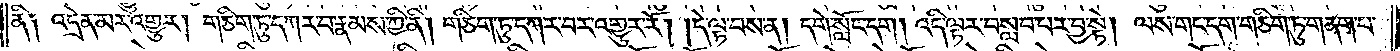ནི༑ འདྲེན་མར་འགྱུར། གཅིག་ཏུ་དཀར་བ་རྣམས་ཀྱི་ནི། གཅིག་ཏུ་དཀར་བར་འགྱུར་རོ། །དེ་ལྟ་བས་ན། དགེ་སློང་དག །འདི་ལྟར་བསླབ་པར་བྱ་སྟེ། ལས་གང་དག་གཅིག་ཏུ་གནག་པ་
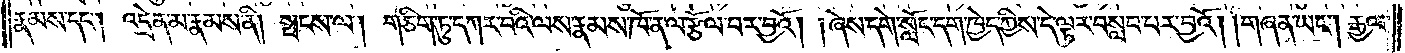རྣམས་དང་འདྲེན་མ་རྣམས་ནི། སྤངས་ལ། གཅིག་ཏུ་དཀར་བའི་ལས་རྣམས་ཁོ་ན་ལ་རྩོལ་བར་བྱའོ། །ཞེས་དགེ་སློང་དག་ཁྱེད་ཀྱིས་དེ་ལྟར་བསླབ་པར་བྱའོ།    །གཞན་ཡང༌། རྒྱལ་
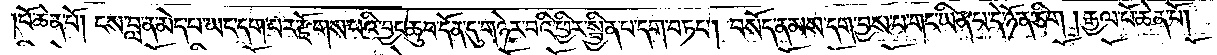པོ་ཆེན་པོ། ངས་བླ་ན་མེད་པ་ཡང་དག་པར་རྫོགས་པའི་བྱང་ཆུབ་དོན་དུ་གཉེར་བའི་ཕྱིར་སྦྱིན་པ་དག་བཏང༌། བསོད་ནམས་དག་བྱས་པ་གང་ཡིན་པ་དེ་ཉོན་ཅིག །རྒྱལ་པོ་ཆེན་པོ།
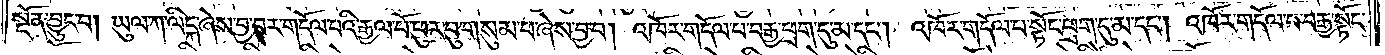སྔོན་བྱུང་བ། ཡུལ་ཀ་ལིངྐ་ཞེས་བྱ་བར་གདོལ་བའི་རྒྱལ་པོ་ཕུར་བུ་གསུམ་པ་ཞེས་བྱ་བ། འཁོར་གདོལ་པ་བརྒྱ་ཕྲག་དུ་མ་དང༌། འཁོར་གདོལ་པ་སྟོང་ཕྲག་དུ་མ་དང༌། འཁོར་གདོལ་པ་བརྒྱ་སྟོང་
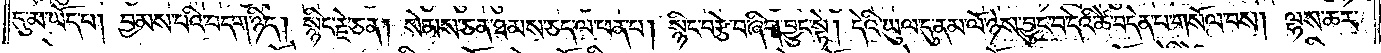དུ་མ་ཡོད་པ། བྱམས་པའི་བདག་ཉིད། སྙིང་རྗེ་ཅན། སེམས་ཅན་ཐམས་ཅད་ལ་ཕན་པ། སྙིང་བརྩེ་བ་ཞིག་བྱུང་སྟེ། དེའི་ཡུལ་དུ་ནམ་ལོ་ཉེས་བྱུང་བ་དེའི་ཚེ་བདེན་པ་གསོལ་བས། ལྷས་ཆར་
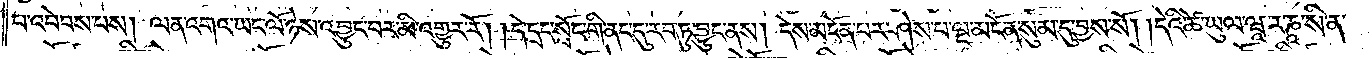པ་འབེབས་པས། ལན་འགའ་ཡང་ལོ་ཉེས་འབྱུང་བར་མི་འགྱུར་རོ། །དེ་དྲང་སྲོང་གི་ནང་དུ་རབ་ཏུ་བྱུང་ནས། དེས་མངོན་པར་ཤེས་པ་ལྔ་མངོན་སུམ་དུ་བྱས་སོ། །དེའི་ཚེ་ཡུལ་ཝཱ་ར་ཎཱ་སི་ན་
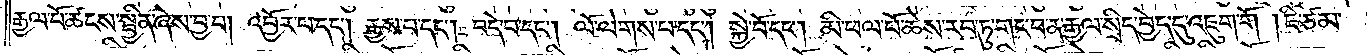རྒྱལ་པོ་ཚངས་སྦྱིན་ཞེས་བྱ་བ། འབྱོར་པ་དང༌། རྒྱས་པ་དང༌། བདེ་བ་དང༌། ལོ་ལེགས་པ་དང༌། སྐྱེ་བོ་དང༌། མི་ཕལ་པོ་ཆེས་རབ་ཏུ་གང་བ་ན་རྒྱལ་སྲིད་བྱེད་དུ་འཇུག་གོ །ཇི་ཙམ་
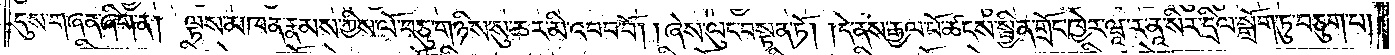དུས་གཞན་ཞིག་ན། ལྟས་མཁན་རྣམས་ཀྱིས་ལོ་བཅུ་གཉིས་སུ་ཆར་མི་འབབ་བོ། །ཞེས་ལུང་བསྟན་ཏོ། །དེ་ནས་རྒྱལ་པོ་ཚངས་སྦྱིན་གྲོང་ཁྱེར་ཝཱ་ར་ནཱ་སིར་དྲིལ་སྒྲོག་ཏུ་བཅུག་པ།
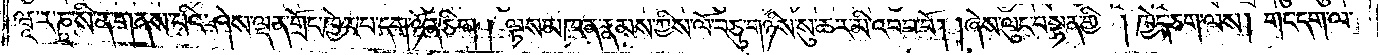ཝཱ་ར་ཎཱ་སི་ན་གནས་པའི་ཤེས་ལྡན་གྲོང་ཁྱེར་པ་དག་ཉོན་ཅིག །ལྟས་མཁན་རྣམས་ཀྱིས་ལོ་བཅུ་གཉིས་སུ་ཆར་མི་འབབ་བོ། །ཞེས་ལུང་བསྟན་གྱི། ཁྱེད་ཅག་ལས། གང་དག་ལ་
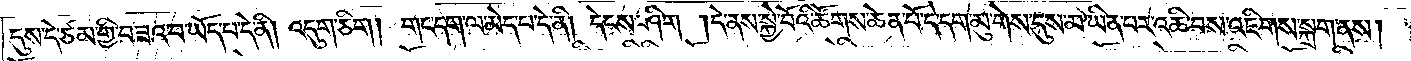དུས་དེ་ཙམ་གྱི་བཟའ་བ་ཡོད་པ་དེ་ནི། འདུག་ཅིག །གང་དག་ལ་མེད་པ་དེ་ནི། དེངས་ཤིག །དེ་ནས་སྐྱེ་བོའི་ཚོགས་ཆེན་པོ་དེ་དག་མུ་གེས་དུས་མ་ཡིན་པར་འཆི་བས་འཇིགས་སྐྲག་ནས།
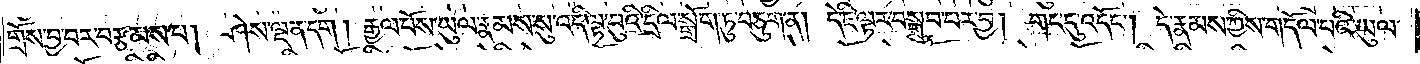གྲོས་བྱ་བར་བརྩམས་པ། ཤེས་ལྡན་དག །རྒྱལ་པོས་ཡུལ་རྣམས་སུ་འདི་ལྟ་བུའི་དྲིལ་སྒྲོག་ཏུ་བཅུག་ན། དེ་ཇི་ལྟར་བསྒྲུབ་པར་བྱ། གང་དུ་འདོང༌། དེ་རྣམས་ཀྱིས་གདོལ་པའི་ཡུལ་
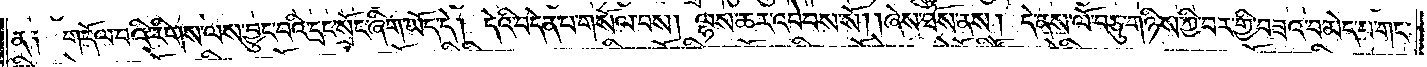ན༑ གདོལ་པའི་རིགས་ལས་བྱུང་བའི་དྲང་སྲོང་ཞིག་ཡོད་དེ། དེའི་བདེན་པ་གསོལ་བས། ལྷས་ཆར་འབེབས་སོ། །ཞེས་ཐོས་ནས། དེ་ནས་ལོ་བཅུ་གཉིས་ཀྱི་བར་གྱི་བཟའ་བ་མེད་པ་གང་
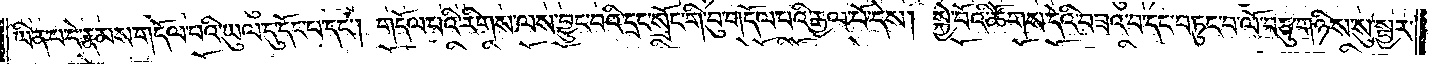ཡིན་པ་དེ་རྣམས་གདོལ་པའི་ཡུལ་དུ་དོང་པ་དང༌། གདོལ་པའི་རིགས་ལས་བྱུང་བའི་དྲང་སྲོང་གི་བུ་གདོལ་བའི་རྒྱལ་པོ་དེས། སྐྱེ་བོའི་ཚོགས་དེའི་བཟའ་བ་དང་བཏུང་བ་ལོ་བཅུ་གཉིས་སུ་སྦྱར་
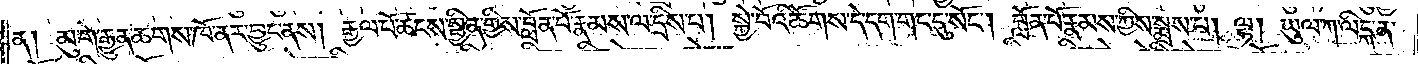ན༑ མུ་གེ་རྒྱུན་ཆགས་ཁོ་ནར་བྱུང་ནས། རྒྱལ་པོ་ཚངས་སྦྱིན་གྱིས་བློན་པོ་རྣམས་ལ་དྲིས་པ། སྐྱེ་བོའི་ཚོགས་དེ་དག་གང་དུ་སོང༌། བློན་པོ་རྣམས་ཀྱིས་སྨྲས་པ། ལྷ། ཡུལ་ཀ་ལིངྐ་ན་
